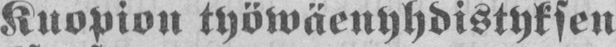Kuopion työwäenyhdistyksen
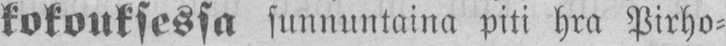kokouksessa sunnuntaina piti hra Pirho-
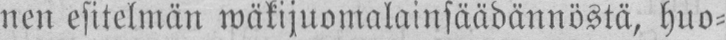nen esitelmän wäkijuomalainsäädännöstä, huo-
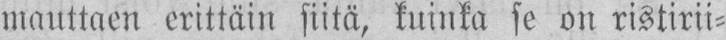mauttaen erittäin siitä, kuinka se on ristirii-
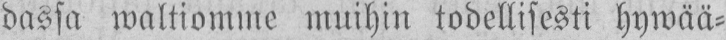dassa waltiomme muihin todellisesti hywää-
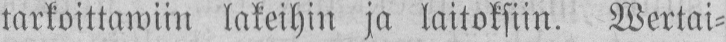tarkoittawiin lakeihin ja laitoksiin. Wertai-
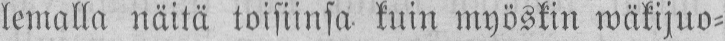lemalla näitä toisiinsa kuin myöskin wäkijuo-
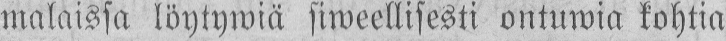malaissa löytywiä siweellisesti ontuwia kohtia
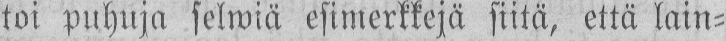toi puhuja selwiä esimerkkejä siitä, että lain-
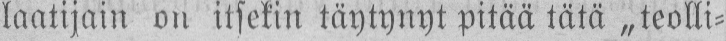laatijani on itsekin täytynyt pitää tätä „teolli-
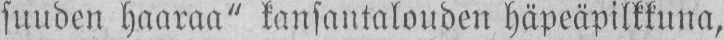suuden haaraa" kansantalouden häpeäpilkkuna,
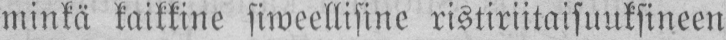minkä kaikkine siweellisine ristiriitaisuuksineen
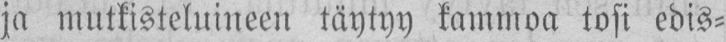ja mutkisteluineen täytyy kammoa tosi edis-
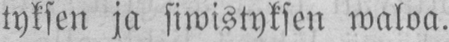tyksen ja siwistyksen waloa.
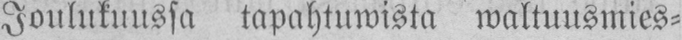Joulukuussa tapahtuwista waltuusmies-
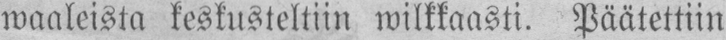waaleista keskusteltiin wilkkaasti. Päätettiin
